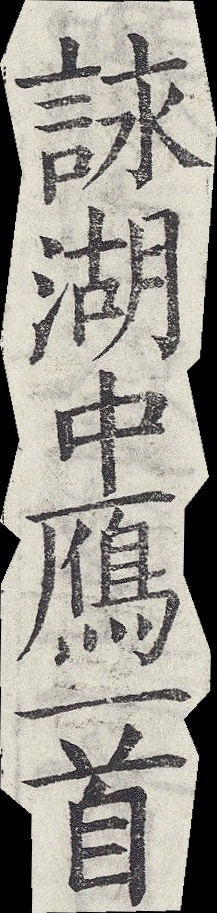詠湖中鴈一首
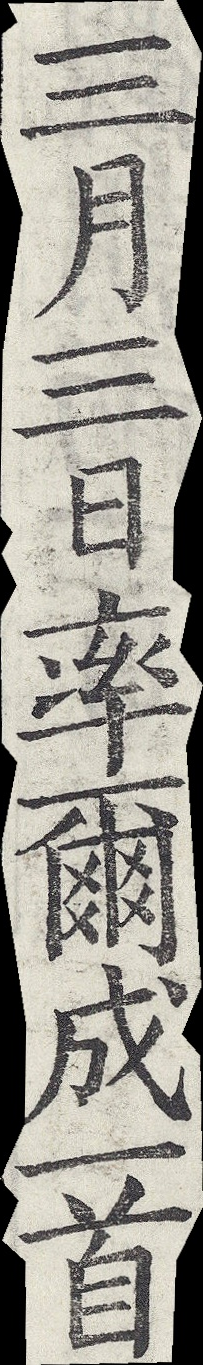三月三日率爾成一首
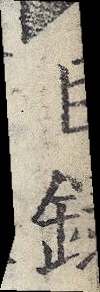目錄
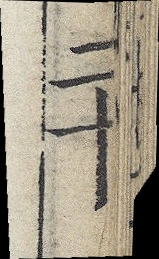二十
